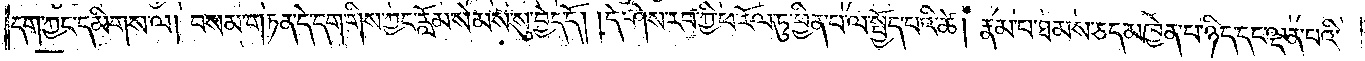དག་ཀྱང་དམིགས་ལ། བསམ་གཏན་དེ་དག་གིས་ཀྱང་རློམ་སེམས་སུ་བྱེད་དོ། །དེ་ཤེས་རབ་ཀྱི་ཕ་རོལ་ཏུ་ཕྱིན་པ་ལ་སྤྱོད་པའི་ཚེ། རྣམ་པ་ཐམས་ཅད་མཁྱེན་པ་ཉིད་དང་ལྡན་པའི་
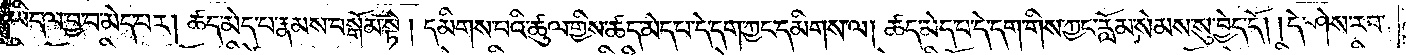ཡིད་ལ་བྱ་བ་མེད་པར། ཚད་མེད་པ་རྣམས་བསྒོམ་སྟེ། དམིགས་པའི་ཚུལ་གྱིས་ཚད་མེད་པ་དེ་དག་ཀྱང་དམིགས་ལ། ཚད་མེད་པ་དེ་དག་གིས་ཀྱང་རློམ་སེམས་སུ་བྱེད་དོ། །དེ་ཤེས་རབ་
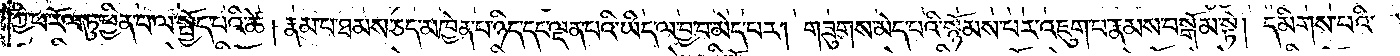ཀྱི་ཕ་རོལ་ཏུ་ཕྱིན་པ་ལ་སྤྱོད་པའི་ཚེ། རྣམ་པ་ཐམས་ཅད་མཁྱེན་པ་ཉིད་དང་ལྡན་པའི་ཡིད་ལ་བྱ་བ་མེད་པར། གཟུགས་མེད་པའི་སྙོམས་པར་འཇུག་པ་རྣམས་བསྒོམ་སྟེ། དམིགས་པའི་
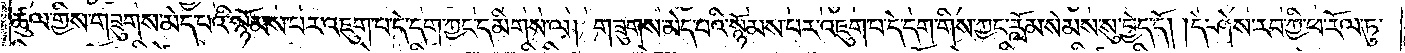ཚུལ་གྱིས་གཟུགས་མེད་པའི་སྙོམས་པར་འཇུག་པ་དེ་དག་ཀྱང་དམིགས་ལ། གཟུགས་མེད་པའི་སྙོམས་པར་འཇུག་པ་དེ་དག་གིས་ཀྱང་རློམ་སེམས་སུ་བྱེད་དོ། །དེ་ཤེས་རབ་ཀྱི་ཕ་རོལ་ཏུ་
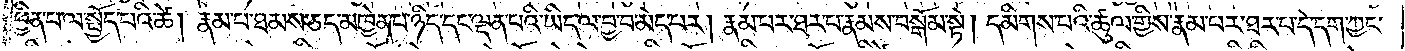ཕྱིན་པ་ལ་སྤྱོད་པའི་ཚེ། རྣམ་པ་ཐམས་ཅད་མཁྱེན་པ་ཉིད་དང་ལྡན་པའི་ཡིད་ལ་བྱ་བ་མེད་པར། རྣམ་པར་ཐར་པ་རྣམས་བསྒོམ་སྟེ། དམིགས་པའི་ཚུལ་གྱིས་རྣམ་པར་ཐར་པ་དེ་དག་ཀྱང་
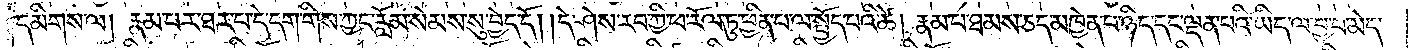དམིགས་ལ། རྣམ་པར་ཐར་པ་དེ་དག་གིས་ཀྱང་རློམ་སེམས་སུ་བྱེད་དོ། །དེ་ཤེས་རབ་ཀྱི་ཕ་རོལ་ཏུ་ཕྱིན་པ་ལ་སྤྱོད་པའི་ཚེ། རྣམ་པ་ཐམས་ཅད་མཁྱེན་པ་ཉིད་དང་ལྡན་པའི་ཡིད་ལ་བྱ་བ་མེད་
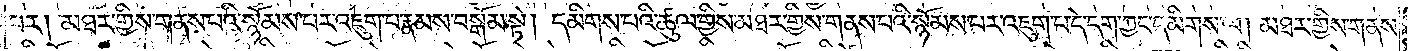པར། མཐར་གྱིས་གནས་པའི་སྙོམས་པར་འཇུག་པ་རྣམས་བསྒོམ་སྟེ། དམིགས་པའི་ཚུལ་གྱིས་མཐར་གྱིས་གནས་པའི་སྙོམས་པར་འཇུག་པ་དེ་དག་ཀྱང་དམིགས་ལ། མཐར་གྱིས་གནས་
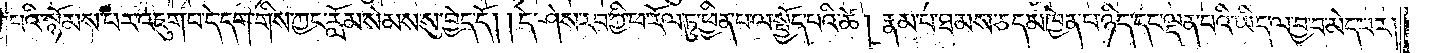པའི་སྙོམས་པར་འཇུག་པ་དེ་དག་གིས་ཀྱང་རློམ་སེམས་སུ་བྱེད་དོ། །དེ་ཤེས་རབ་ཀྱི་ཕ་རོལ་ཏུ་ཕྱིན་པ་ལ་སྤྱོད་པའི་ཚེ། རྣམ་པ་ཐམས་ཅད་མཁྱེན་པ་ཉིད་དང་ལྡན་པའི་ཡིད་ལ་བྱ་བ་མེད་པར།
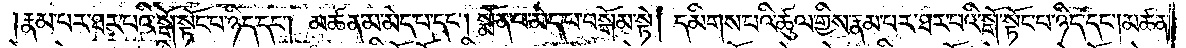རྣམ་པར་ཐར་པའི་སྒོ་སྟོང་པ་ཉིད་དང༌། མཚན་མ་མེད་པ་དང༌། སྨོན་པ་མེད་པ་བསྒོམ་སྟེ། དམིགས་པའི་ཚུལ་གྱིས་རྣམ་པར་ཐར་པའི་སྒོ་སྟོང་པ་ཉིད་དང༌། མཚན་
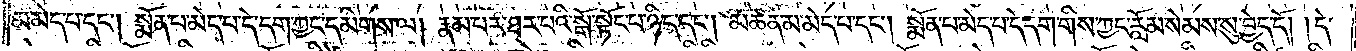མ་མེད་པ་དང༌། སྨོན་པ་མེད་པ་དེ་དག་ཀྱང་དམིགས་ལ། རྣམ་པར་ཐར་པའི་སྒོ་སྟོང་པ་ཉིད་དང༌། མཚན་མ་མེད་པ་དང༌། སྨོན་པ་མེད་པ་དེ་དག་གིས་ཀྱང་རློམ་སེམས་སུ་བྱེད་དོ། །དེ་
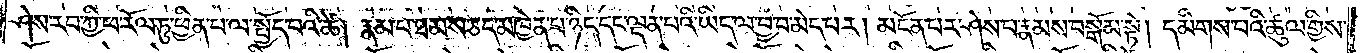ཤེས་རབ་ཀྱི་ཕ་རོལ་ཏུ་ཕྱིན་པ་ལ་སྤྱོད་པའི་ཚེ། རྣམ་པ་ཐམས་ཅད་མཁྱེན་པ་ཉིད་དང་ལྡན་པའི་ཡིད་ལ་བྱ་བ་མེད་པར། མངོན་པར་ཤེས་པ་རྣམས་བསྒོམ་སྟེ། དམིགས་པའི་ཚུལ་གྱིས་
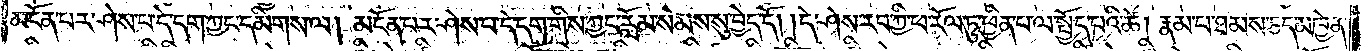མངོན་པར་ཤེས་པ་དེ་དག་ཀྱང་དམིགས་ལ། མངོན་པར་ཤེས་པ་དེ་དག་གིས་ཀྱང་རློམ་སེམས་སུ་བྱེད་དོ། །དེ་ཤེས་རབ་ཀྱི་ཕ་རོལ་ཏུ་ཕྱིན་པ་ལ་སྤྱོད་པའི་ཚེ། རྣམ་པ་ཐམས་ཅད་མཁྱེན་
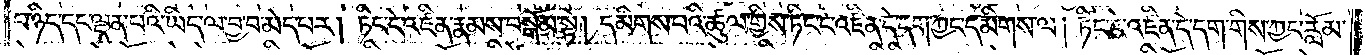པ་ཉིད་དང་ལྡན་པའི་ཡིད་ལ་བྱ་བ་མེད་པར། ཏིང་ངེ་འཛིན་རྣམས་བསྒོམ་སྟེ། དམིགས་པའི་ཚུལ་གྱིས་ཏིང་ངེ་འཛིན་དེ་དག་ཀྱང་དམིགས་ལ། ཏིང་ངེ་འཛིན་དེ་དག་གིས་ཀྱང་རློམ་
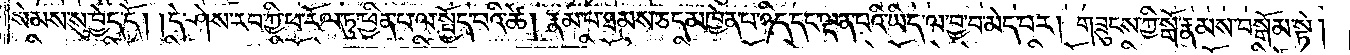སེམས་སུ་བྱེད་དོ། །དེ་ཤེས་རབ་ཀྱི་ཕ་རོལ་ཏུ་ཕྱིན་པ་ལ་སྤྱོད་པའི་ཚེ། རྣམ་པ་ཐམས་ཅད་མཁྱེན་པ་ཉིད་དང་ལྡན་པའི་ཡིད་ལ་བྱ་བ་མེད་པར། གཟུངས་ཀྱི་སྒོ་རྣམས་བསྒོམ་སྟེ།
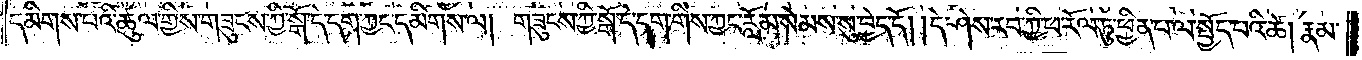དམིགས་པའི་ཚུལ་གྱིས་གཟུངས་ཀྱི་སྒོ་དེ་དག་ཀྱང་དམིགས་ལ། གཟུངས་ཀྱི་སྒོ་དེ་དག་གིས་ཀྱང་རློམ་སེམས་སུ་བྱེད་དོ། །དེ་ཤེས་རབ་ཀྱི་ཕ་རོལ་ཏུ་ཕྱིན་པ་ལ་སྤྱོད་པའི་ཚེ། རྣམ་
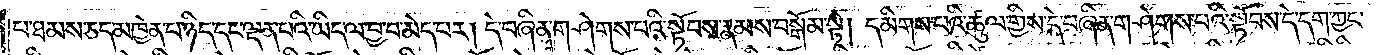པ་ཐམས་ཅད་མཁྱེན་པ་ཉིད་དང་ལྡན་པའི་ཡིད་ལ་བྱ་བ་མེད་པར། དེ་བཞིན་གཤེགས་པའི་སྟོབས་རྣམས་བསྒོམ་སྟེ། དམིགས་པའི་ཚུལ་གྱིས་དེ་བཞིན་གཤེགས་པའི་སྟོབས་དེ་དག་ཀྱང་
